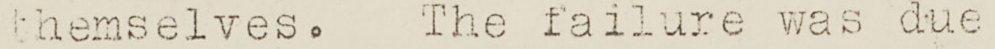themselves. The failure was due
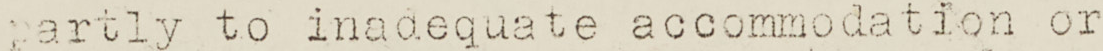partly to inadequate accommodation or
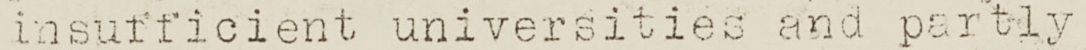insufficient universities and partly
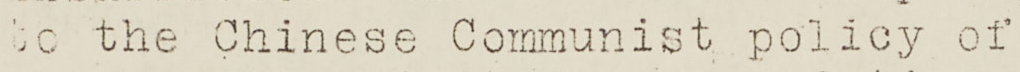to the Chinese Communist policy of
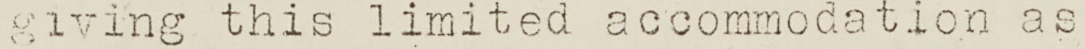giving this limited accommodation as
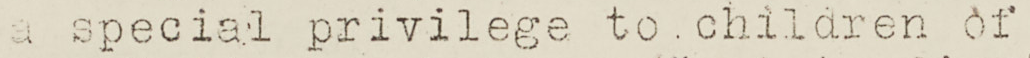a special privilege to children of
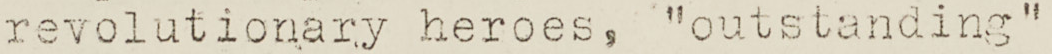revolutionary heroes, "outstanding"
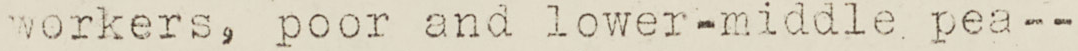workers, poor and lower middle pea--
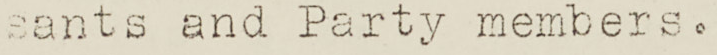sants and Party members.
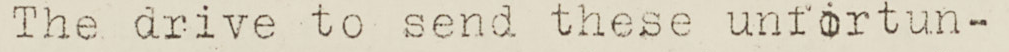The drive to send these unfortun-
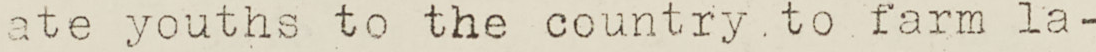ate youths to the country to farm la-
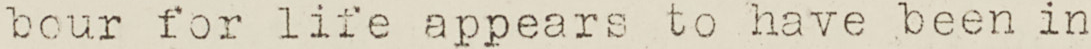bour for life appears to have been in
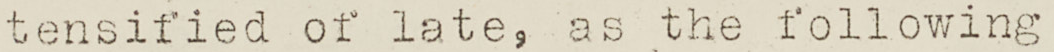tensified of late, as the following
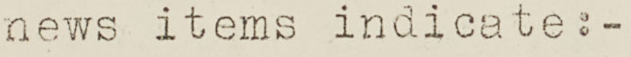news items indicate:-
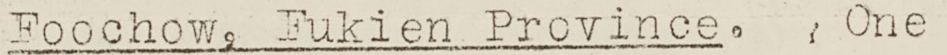Foochow, Fukien Province. One
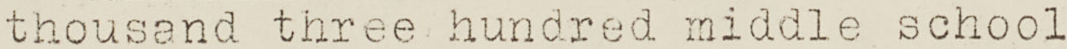thousand three hundred middle school
